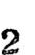2
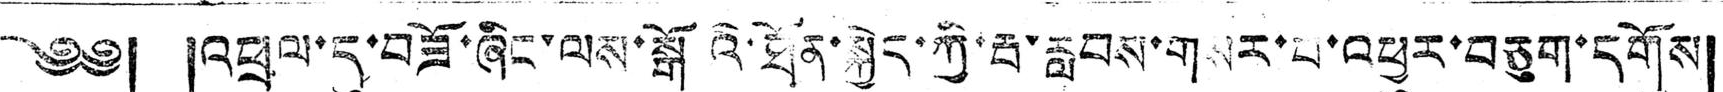༄༅། །འཕྲལ་དུ་བཟོ་ཞིང་ལས་སྒོའི་ཐོན་སྐྱེད་ཀྱི་རྦ་རླབས་གསར་པ་འཕྱུར་བཅུག་དགོས།
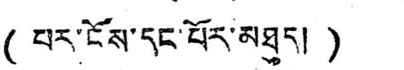( པར་ངོས་དང་པོར་མཐུད། )
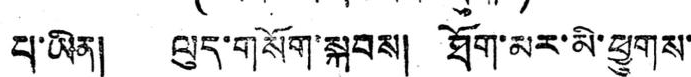པ་ཡིན། ལུད་གསོག་སྐབས། ཐོག་མར་མི་ཕྱུགས་
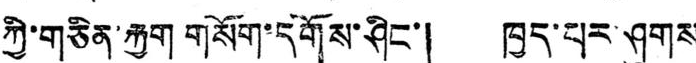ཀྱི་གཅིན་རྐྱག གསོག་དགོས་ཤིང་། ཁྱད་པར་ཤུགས
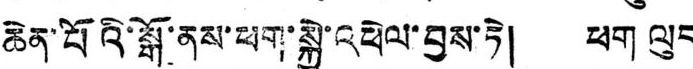ཆེན་པོའི་སྒོ་ནས་ཕག་སྐྱེ་འཕེལ་བྱས་ཏེ། ཕག ལུད
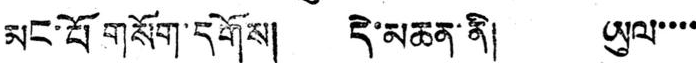མང་པོ གསོག་དགོས། དེ་མཆན་ནི། ཡུལ་་་་
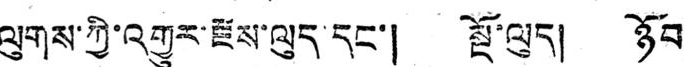ལུགས་ཀྱི་འགྱུར་རྫས་ལུད་དང་། སྔོ་ལུད། ཉོབ་
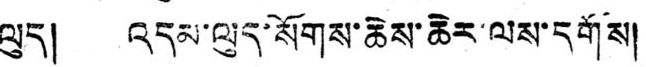ལུད། འདམ་ལུད་སོགས་ཆེས་ཆེར་ལས་དགོས།
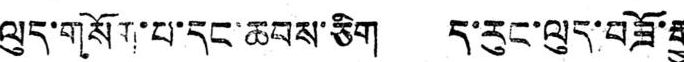ལུད་གསོག་པ་དང་ཆབས་ཅིག ད་རུང་ལུད་བཟོ་རྒྱུ
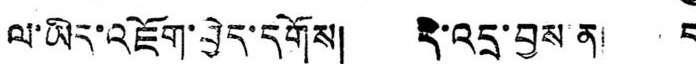ལ་ཡིད་འཇོག་བྱེད་དགོས། དེ་འདྲ་བྱས་ན། ད
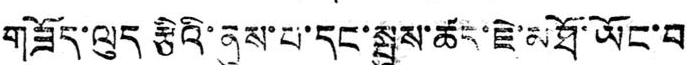གཟོད་ལུད རྩིའི་ནུས་པ་དང་སྤུས་ཚར་ཇེ་མཐོ་ཡོང་བ་
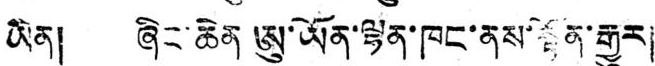ཡིན། ཞིང་ཆེན ཨུ་ཡོན་ལྷན་ཁང་ནས་སྟོན་རྒྱུར།
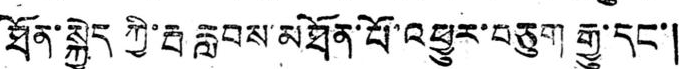ཐོན་སྐྱེད ཀྱི་རྦ རླབས་མཐོན་པོ་འཕྱུར་བཅུག རྒྱུ་དང་།
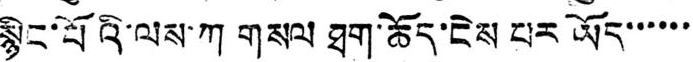སྙིང་པོའི་ལས་ཀ གསལ ཐག་ཆོད་ངེས པར ཡོད་་་་་་
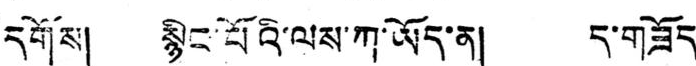དགོས། སྙིང་པོའི་ལས་ཀ་ཡོད་ན། ད་གཟོད
